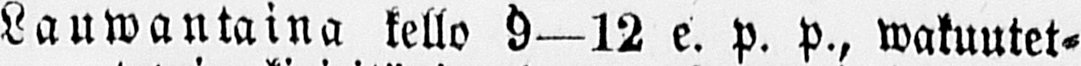Lauwantaina kello 9-12 e. p. p., wakuutet-
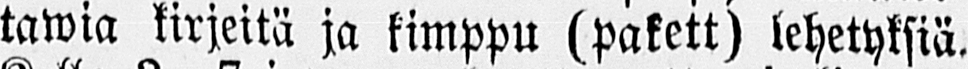tawia kirjeitä ja kimppu (pakett) lehetyksiä.
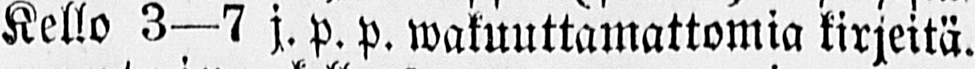Kello 3—7 j. p. p. wakuuttamattomia kirjeitä.
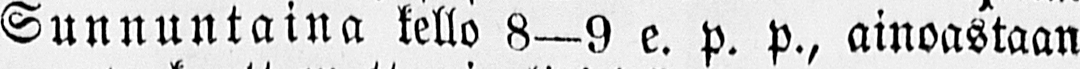Sunnuntaina kello 8—9 e. p. p., ainoastaan
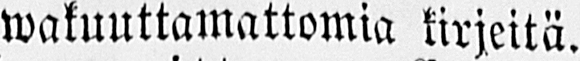wakuuttamattomia kirjeitä.
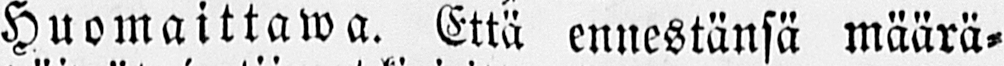Huomaittawa. Että ennestänsä määrä-
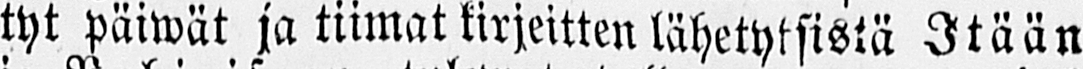tyt päiwät ja tiimat kirjeitten lähetyksistä Itään
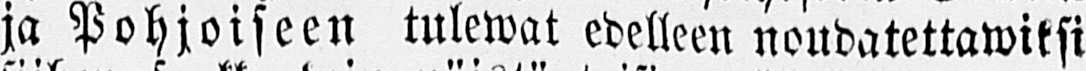ja Pohjoiseen tulewat edelleen noudatettawiksi
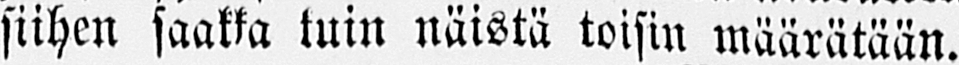siihen saakka tuin näistä toisin määrätään.
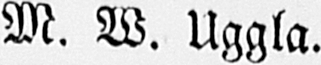M. W. Uggla.
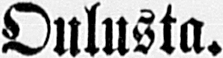Oulusta.
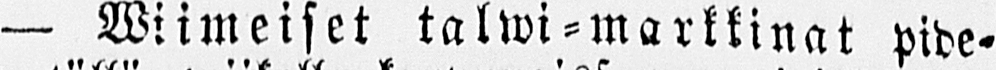— Wiimeiset talwi-markkinat pide-
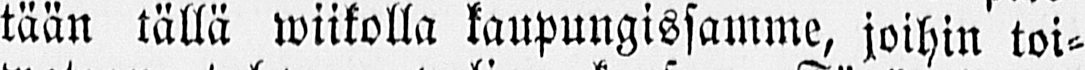tään tällä wiikolla kaupungissamme, joihin toi-
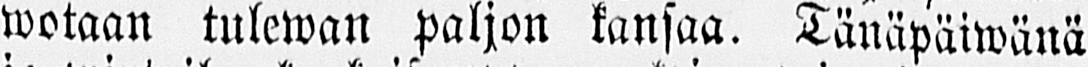wotaan tulewan paljon kansaa. Tänäpäiwänä
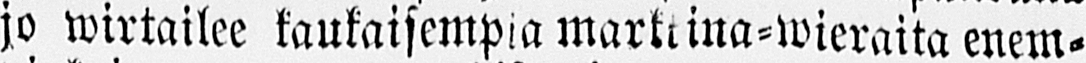jo wirtailee kaukaisempia markkina-wieraita enem-
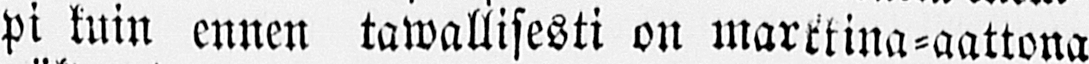pi kuin ennen tawallisesti on markkina-aattona
